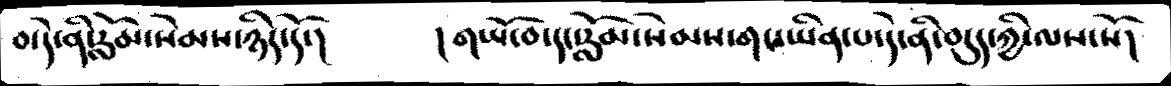བ་དེ་ནི་རློམ་སེམས་ཉིད་དོ་།    །གཡོ་བ་དང་རློམ་སེམས་གང་ཡིན་པ་དེ་ནི་བདུད་ཀྱི་ལས་སོ།
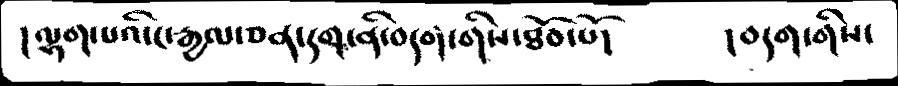།ལྷག་པའི་ང་རྒྱལ་ཅན་དག་ནི་བདག་གིས་ཐོབ་པོ།    །བདག་གིས་
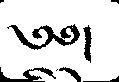༄༅།
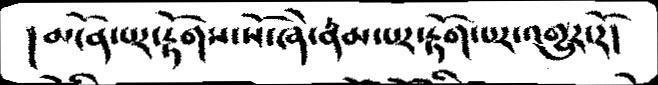།མངོན་པར་རྟོགས་སོ་ཞེ་རྣམ་པར་རྟོག་པར་འགྱུར་རོ།
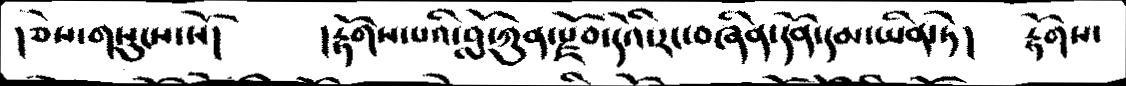།ཅེས་གསུངས་སོ།   །རྟོགས་པའི་བློ་ཀུན་རྫོབ་དེའི་རང་བཞིན་དོན་དམ་ཡིན་ཏེ།  རྟོགས་
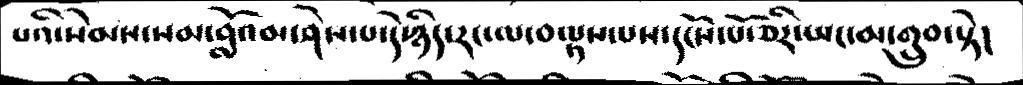པའི་སེམས་སམ་བློའམ་ཤེས་པ་དེ་ཉིད་རང་ལ་བལྟས་པས་དངོས་པོ་ཅིར་ཡང་མ་གྲུབ་སྟེ།
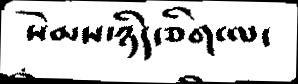སེམས་ཉིད་ཅིག་ལ་
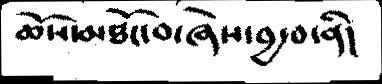ཆོས་མཐོང་བ་ཞེས་བྱ་བ་ནི།
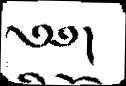༄༅།
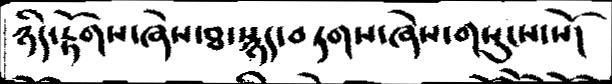ཉིད་རྟོགས་ཞེས་ཐ་སྙད་བཏགས་ཞེས་གསུངས་སོ།
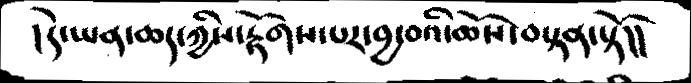།དེ་ཡན་ཆད་ཀྱིས་རྟོགས་པར་བྱ་བའི་ཆོས་བསྟན་སྟོ།།
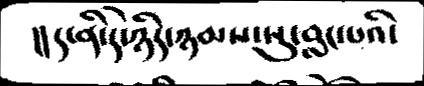།། ད་ནི་དེ་ཉིད་ཉམས་སུ་བླང་པའི་
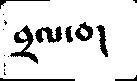བྲལ་བ།
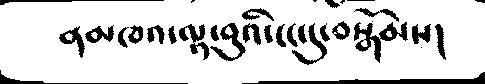ནམཁའ་ལྟ་བུའི་ངང་དུ་བསྒོམས།
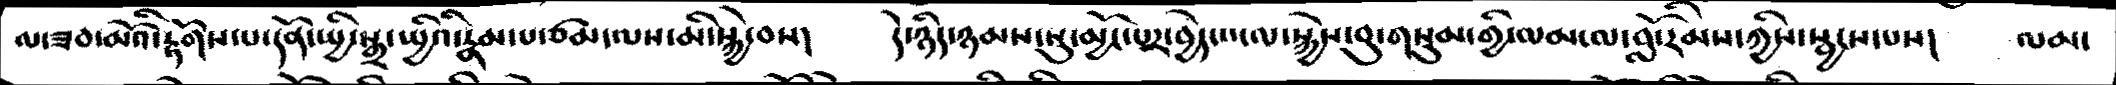ལ་ཟབ་མོའི་རྟོགས་པ་དོན་སྤྱི་སྒྲ་སྤྱིའི་རྣམ་པ་ཙམ་་ལས་མི་སྐྱེ་བས།   དེ་ཉིད་ཉམས་སུ་མྱོང་པར་བྱེད་པ་ལ་སྐྱེས་བུ་གསུམ་གྱི་ལམ་ལ་བློ་རིམས་ཀྱིས་སྦྱངས་པས།   ལམ་
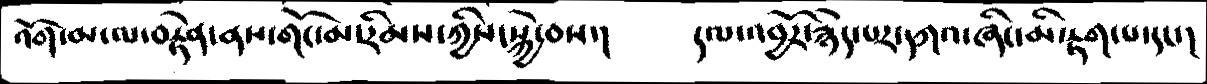འོག་མ་ལ་བརྟེན་ནས་གོང་མ་རིམས་ཀྱིས་སྐྱེ་བས་།  དལ་འབྱོར་རྙེད་པར་དཀའ་ཞིང་མི་རྟག་པ་དང་།
